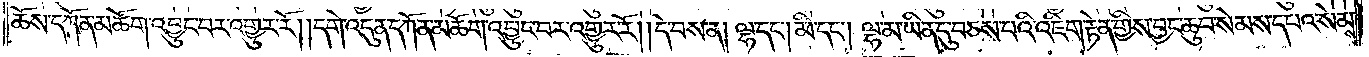ཆོས་དཀོན་མཆོག་འབྱུང་བར་འགྱུར་རོ། །དགེ་འདུན་དཀོན་མཆོག་འབྱུང་བར་འགྱུར་རོ། །དེ་བས་ན། ལྷ་དང༌། མི་དང༌། ལྷ་མ་ཡིན་དུ་བཅས་པའི་འཇིག་རྟེན་གྱིས་བྱང་ཆུབ་སེམས་དཔའ་སེམས་
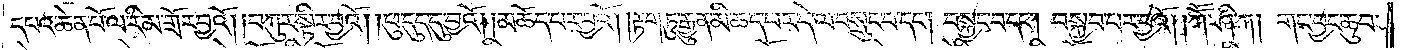དཔའ་ཆེན་པོ་ལ་རིམ་གྲོར་བྱའོ། །བཀུར་སྟིར་བྱའོ། །ཕུ་དུད་དུ་བྱའོ། །མཆོད་པར་བྱའོ། །རྟག་ཏུ་རྒྱུན་མི་ཆད་པར་དེ་ལ་བསྲུང་བ་དང༌། བསྐྱང་བ་དང༌། བསྐྱབ་པར་བྱའོ། །ཀཽ་ཤི་ཀ། གང་བྱང་ཆུབ་
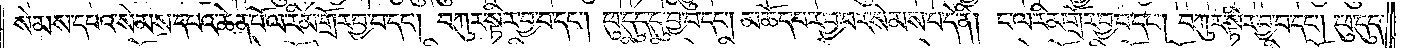སེམས་དཔའ་སེམས་དཔའ་ཆེན་པོ་ལ་རིམ་གྲོར་བྱ་བ་དང༌། བཀུར་སྟིར་བྱ་བ་དང༌། ཕུ་དུད་དུ་བྱ་བ་དང༌། མཆོད་པར་བྱ་བར་སེམས་པ་དེ་ནི། ང་ལ་རིམ་གྲོར་བྱ་བ་དང༌། བཀུར་སྟིར་བྱ་བ་དང༌། ཕུ་དུད་
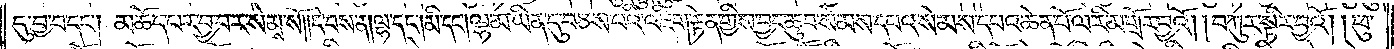དུ་བྱ་བ་དང༌། མཆོད་པར་བྱ་བར་སེམས་སོ། །དེ་བས་ན། ལྷ་དང༌། མི་དང༌། ལྷ་མ་ཡིན་དུ་བཅས་པའི་འཇིག་རྟེན་གྱིས་བྱང་ཆུབ་སེམས་དཔའ་སེམས་དཔའ་ཆེན་པོ་ལ་རིམ་གྲོར་བྱའོ། །བཀུར་སྟིར་བྱའོ། །ཕུ་
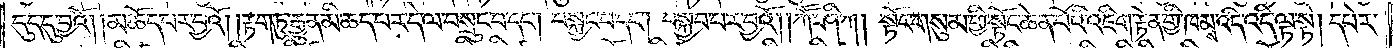དུད་དུ་བྱའོ། །མཆོད་པར་བྱའོ། །རྟག་ཏུ་རྒྱུན་མི་ཆད་པར་དེ་ལ་བསྲུང་བ་དང༌། བསྐྱང་བ་དང༌། བསྐྱབ་པར་བྱའོ། །ཀཽ་ཤི་ཀ། སྟོང་གསུམ་གྱི་སྟོང་ཆེན་པོའི་འཇིག་རྟེན་གྱི་ཁམས་འདི་ལྟ་སྟེ། དཔེར་
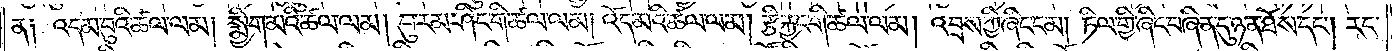ན༑ འདམ་བུའི་ཚལ་ལམ། སྨྱིག་མའི་ཚལ་ལམ། བུ་རམ་ཤིང་གི་ཚལ་ལམ། འོད་མའི་ཚལ་ལམ། རྩི་སྐྱང་གི་ཚལ་ལམ། འབྲས་ཀྱི་ཞིང་ངམ། ཏིལ་གྱི་ཞིང་བཞིན་དུ་ཉན་ཐོས་དང༌། རང་
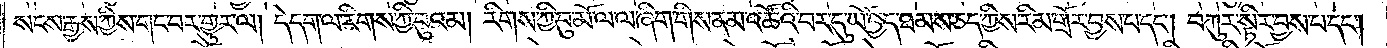སངས་རྒྱས་ཀྱིས་གང་བར་གྱུར་ལ། དེ་དག་ལ་རིགས་ཀྱི་བུའམ། རིགས་ཀྱི་བུ་མོ་ལ་ལ་ཞིག་གིས་ནམ་འཚོའི་བར་དུ་ཡོ་བྱད་ཐམས་ཅད་ཀྱིས་རིམ་གྲོར་བྱས་པ་དང༌། བཀུར་སྟིར་བྱས་པ་དང༌།
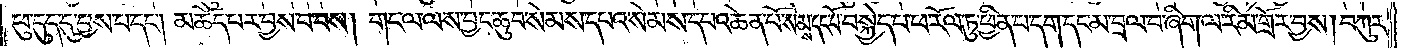ཕུ་དུད་དུ་བྱས་པ་དང༌། མཆོད་པར་བྱས་པ་བས། གང་ལ་ལས་བྱང་ཆུབ་སེམས་དཔའ་སེམས་དཔའ་ཆེན་པོ་སེམས་བསྐྱེད་པ་ཕ་རོལ་ཏུ་ཕྱིན་པ་དྲུག་དང་མ་བྲལ་བ་ཞིག་ལ་རིམ་གྲོར་བྱས། བཀུར་
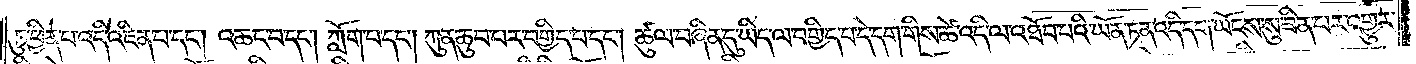ཏུ་ཕྱིན་པ་འདི་འཛིན་པ་དང༌། འཆང་བ་དང༌། ཀློག་པ་དང༌། ཀུན་ཆུབ་པར་བགྱིད་པ་དང༌། ཚུལ་བཞིན་དུ་ཡིད་ལ་བགྱིད་པ་དེ་དག་གིས་ཚེ་འདི་ལ་འཐོབ་པའི་ཡོན་ཏན་འདི་དག་ཡོངས་སུ་ཟིན་པར་འགྱུར་
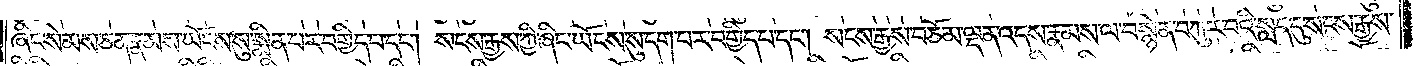ཞིང་སེམས་ཅན་རྣམས་ཡོངས་སུ་སྨིན་པར་བགྱིད་པ་དང༌། སངས་རྒྱས་ཀྱི་ཞིང་ཡོངས་སུ་དག་པར་བགྱིད་པ་དང༌། སངས་རྒྱས་བཅོམ་ལྡན་འདས་རྣམས་བསྙེན་བཀུར་བའི་སླད་དུ་སངས་རྒྱས་
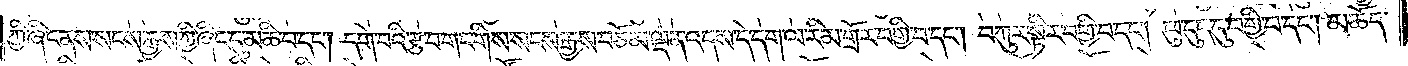ཀྱི་ཞིང་ནས་སངས་རྒྱས་ཀྱི་ཞིང་དུ་མཆི་བ་དང༌། དགེ་བའི་རྩ་བ་གང་གིས་སངས་རྒྱས་བཅོམ་ལྡན་འདས་དེ་དག་ལ་རིམ་གྲོར་བགྱི་བ་དང༌། བཀུར་སྟིར་བགྱི་བ་དང༌། ཕུ་དུད་དུ་བགྱི་བ་དང༌། མཆོད་
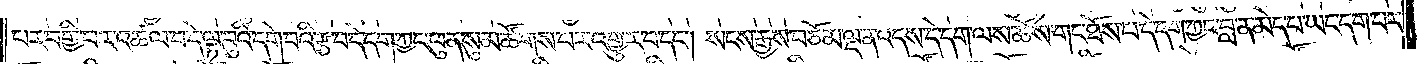པར་བགྱི་བར་འཚལ་བ་དེ་ལྟ་བུའི་དགེ་བའི་རྩ་བ་དེ་དག་ཀྱང་ཕུན་སུམ་ཚོགས་པར་འགྱུར་བ་དང༌། སངས་རྒྱས་བཅོམ་ལྡན་འདས་དེ་དག་ལས་ཆོས་གང་ཐོས་པ་དེ་དག་ཀྱང་བླ་ན་མེད་པ་ཡང་དག་པར་
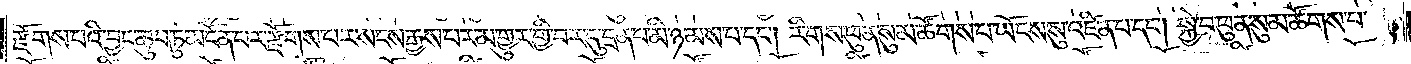རྫོགས་པའི་བྱང་ཆུབ་ཏུ་མངོན་པར་རྫོགས་པར་སངས་རྒྱས་པར་མ་གྱུར་གྱི་བར་དུ་དྲན་པ་མི་ཉམས་པ་དང༌། རིགས་ཕུན་སུམ་ཚོགས་པ་ཡོངས་སུ་འཛིན་པ་དང༌། སྐྱེ་བ་ཕུན་སུམ་ཚོགས་པ་
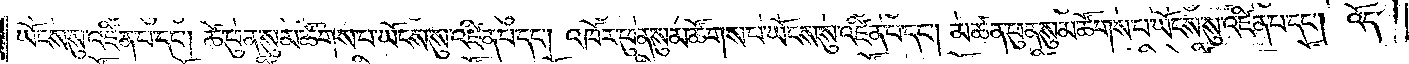ཡོངས་སུ་འཛིན་པ་དང༌། ཚེ་ཕུན་སུམ་ཚོགས་པ་ཡོངས་སུ་འཛིན་པ་དང༌། འཁོར་ཕུན་སུམ་ཚོགས་པ་ཡོངས་སུ་འཛིན་པ་དང༌། མཚན་ཕུན་སུམ་ཚོགས་པ་ཡོངས་སུ་འཛིན་པ་དང༌། འོད་
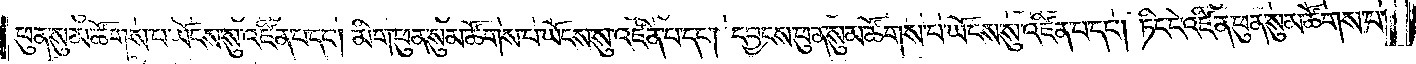ཕུན་སུམ་ཚོགས་པ་ཡོངས་སུ་འཛིན་པ་དང༌། མིག་ཕུན་སུམ་ཚོགས་པ་ཡོངས་སུ་འཛིན་པ་དང༌། དབྱངས་ཕུན་སུམ་ཚོགས་པ་ཡོངས་སུ་འཛིན་པ་དང༌། ཏིང་ངེ་འཛིན་ཕུན་སུམ་ཚོགས་པ་
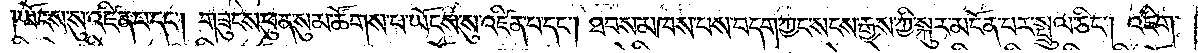ཡོངས་སུ་འཛིན་པ་དང༌། གཟུངས་ཕུན་སུམ་ཚོགས་པ་ཡོངས་སུ་འཛིན་པ་དང༌། ཐབས་མཁས་པས་བདག་ཀྱང་སངས་རྒྱས་ཀྱི་སྐུར་མངོན་པར་སྒྲུབ་ཅིང༌། འཇིག་
